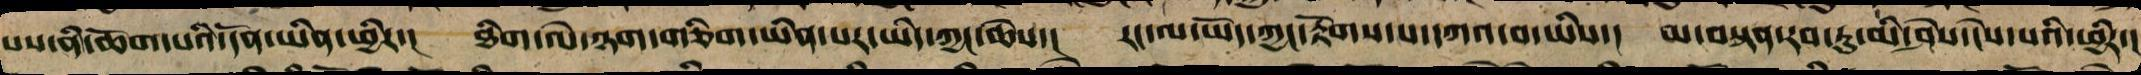པས་ནི་ཆོག་པའི་དོན་ཡིན་ཕྱིར་།   ཐིག་ལེ་ཉག་གཅིག་ཡིན་པར་ཡིད་ཀྱང་ཆེས་།   རང་ལ་ཡོད་ཀྱང་རྟོགས་པ་དཀའ་བ་ཡིས་།   མ་བསྟན་རབ་ཏུ་མི་ཤེས་ངེས་པའི་ཕྱིར་།
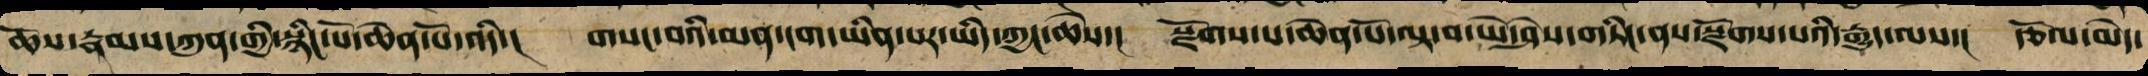ཆོས་རྣམས་ཀུན་གྱི་སྙིང་པོ་ཆེན་པོ་འདི་།   གསང་བའི་མན་ངག་ཡིན་པར་ཡིད་ཀྱང་ཆེས་།   སྫོགས་པ་ཆེན་པོ་ལྟ་བ་ཡེ་ཤེས་གཏིང་ནས་སྫོགས་པའི་རྒྱུད་ལས་།  རྩོལ་མེད་
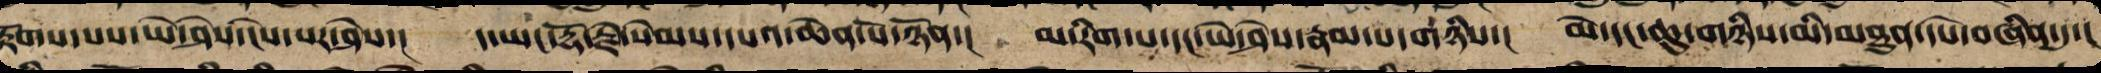རྟོགས་པས་ཡེ་ཤེས་ངེས་པར་ཤེས་།    ད་ཡང་རྡོ་རྗེ་སེམས་དཔའ་ཆེན་པོ་ཉོན་།   མ་རིག་པ་དང་ཡེ་ཤེས་རྣམ་པ་གཉིས་།   མེ་དང་ཆུ་གཉིས་མི་མཐུན་དཔེ་བཞིན་དུ་།
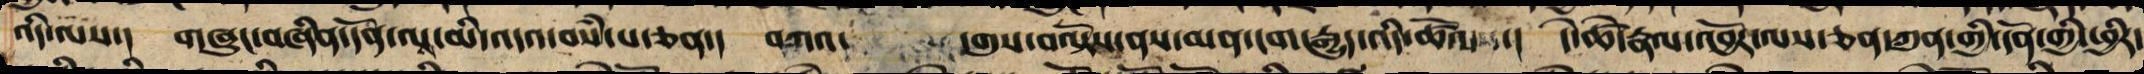འདི་ལས་། གཞུང་བཞིན་དོན་ལས་མི་འདའ་བསཾ་པ་ཅན་། དཀའ་  གུས་བལྟོས་ནས་མན་ངག་རྒྱུད་འདི་ཚོལ། དེ་ཚེ་རྣལ་འབྱོར་ལས་ཅན་ཀུན་གྱི་དོན་གྱི་ཕྱིར་
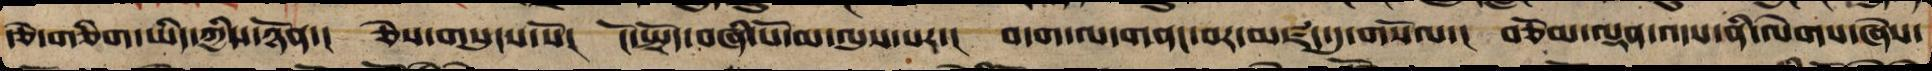རྩེ་གཅིག་ཡིད་ཀྱིས་ཉོན་།  ཅེས་གསུངས་སོ་།  ངོ་སྤྲོད་བཞི་པོ་མ་ལུས་པར་།  བདག་ལ་གནང་བར་མཛད་དུ་གསོལ་།  བཅོམ་ལྡན་འདས་ནི་ལེགས་ཞེས་
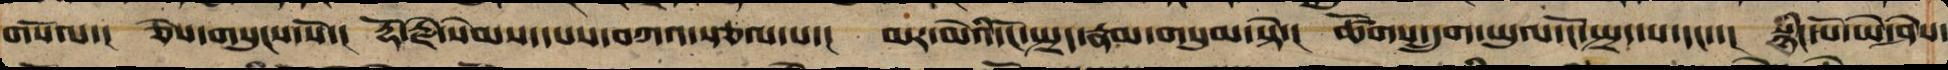གསོལ་།   ཅེས་གསུངས་སོ་།  རྡོ་རྗེ་སེམས་དཔས་བཀའ་སྩལ་པ་།  མར་མེའི་ངོ་སྤྲད་རྣམ་གསུམ་སྟེ་།   ཚོགས་དྲུག་ཡུལ་ངོ་སྤྲད་པ་དང་།   སྙིང་པོ་ཡེ་ཤེས་
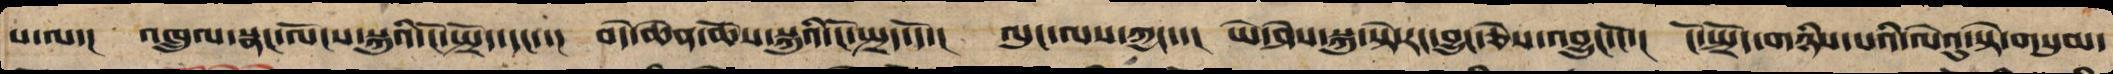པ་ལ་།  འཁྲུལ་སྣང་ལོངས་སྐུའི་ངོ་སྤྲོད་དང་་།  བདེ་ཆེན་ཆོས་སྐུའི་ངོ་སྤྲད་དོ་།   ལུང་ལས་ཀྱང་་།   ཡེ་ཤེས་སྐུ་སྟེ་རང་བྱུང་ཅེས་འབྱུང་ངོ་།   ངོ་སྤྲོད་གཉིས་པའི་ལེའུ་སྟེ་གསུམ་
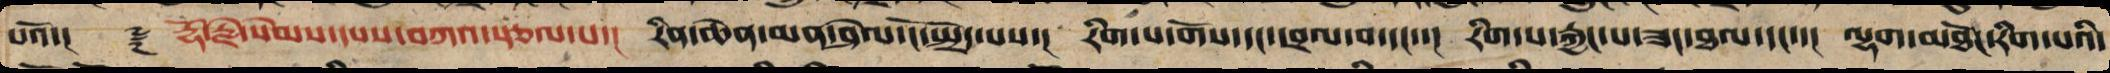པའོ་།།   ༈  རྡོ་རྗེ་སེམས་དཔས་བཀའ་སྩལ་པ་།  རིན་ཆེན་མན་ཤེལ་ངོ་སྤྲོད་པས་།   རིག་པ་གོས་དང་དབྲལ་བ་དང་་།  རིག་པ་རྐྱང་པ་ཟང་ཐལ་དང་་།  ལྷག་མཐོང་རིག་པའི་
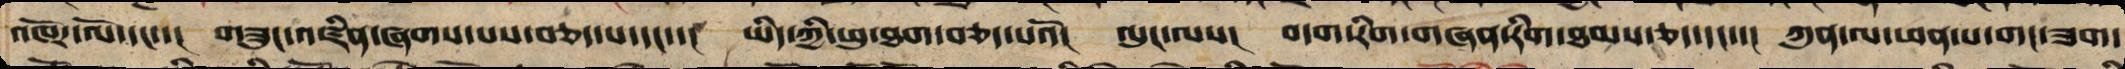འཁོར་ལོ་དང་་།  གཟུང་འཛིན་ཞགས་པས་བཅད་པ་དང་་།   ཡིད་ཀྱི་ཕུ་ཐག་བཅད་པའོ།   ལུང་ལས།   བདག་རིག་གཞན་རིག་ཐམས་ཅད་དང་་།  ཀུན་ལ་ཕན་པ་གང་ཟག་
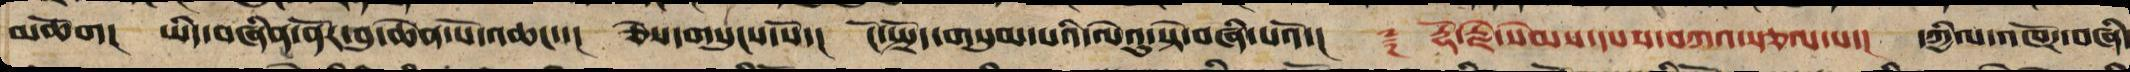མཆོག།།  ཡིད་བཞིན་ནོར་བུ་ཆེན་པོ་འཆང་།  ཅེས་གསུངས་སོ་།  ངོ་སྤྲོད་གསུམ་པའི་ལེའུ་སྟེ་བཞི་པའོ་།།   ༈   རྡོ་རྗེ་སེམས་དཔས་བཀའ་སྩལ་པ་།  དཀྱིལ་འཁོར་བཞི་
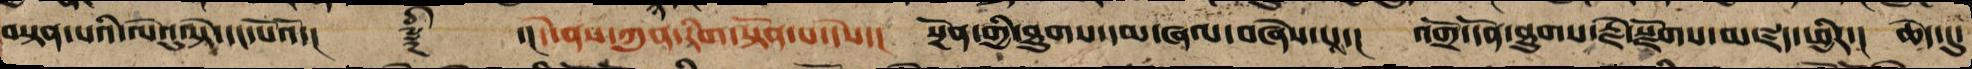བསྟན་པའི་ལེའུ་སྟེ་དང་པོའོ།། ༈ ་་དེ་ནས་ཀུན་རིག་སྟོན་པ་དེས། སྔོན་གྱི་ཐུགས་དམ་ཞལ་བཞེས་པས། འགྲོ་དོན་ཐུགས་རྗེ་རྫོགས་མཛད་ཕྱིར། ཆེད་དུ་
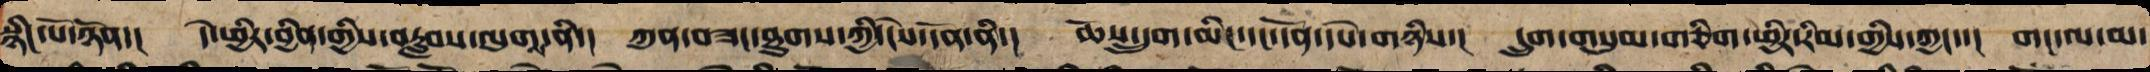སྙིང་པོ་ཉོན་།   དེ་ཕྱིར་བྱིན་གྱིས་བརླབས་ལུག་ནི་།  ཀུན་བཟང་ཐུགས་ཀྱི་ངེས་དོན་ནི་།   ཆོས་དྲུག་མིང་དང་དོན་དཔེ་གཉིས་།   དྲུག་གསུམ་གཅིག་ཕྱིར་རིམ་གྱིས་ཀྱང་་།  གང་ལ་མ་
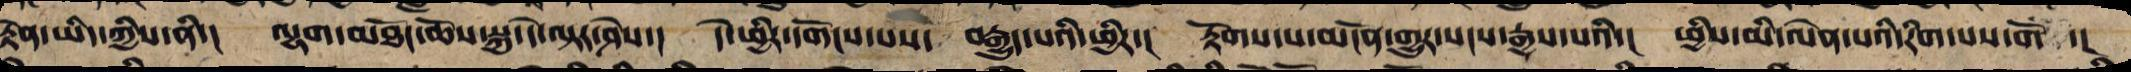རྟེན་ཡིད་ཀྱིས་ནི་།  ལྷག་མཐོང་ཆོས་སྐུ་དེ་ལྟར་ཤེས་།   དེ་ཕྱིར་དགོངས་པས་  བརྒྱུད་པའི་ཕྱིར་།  རྟོགས་པ་མངོན་གྱུར་སངས་རྒྱས་པའི་།   ཕྱིས་མི་ལེན་པའི་རིག་པས་གོ  ་།
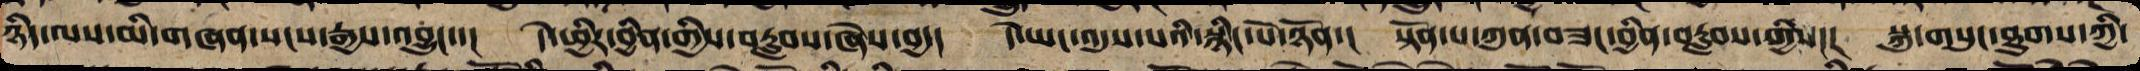ཉིད་ལས་མི་གཞན་སངས་རྒྱས་འབྱུང་་།   དེ་ཕྱིར་བྱིན་གྱིས་བརླབས་ཞེས་བྱ་།   དེ་ཡང་འདུས་པའི་སྙིང་པོ་ཉོན་།  སྟོན་པ་ཀུན་བཟང་བྱིན་རླབས་གྱིས་།  སྐུ་གསུང་ཐུགས་ཀྱི་
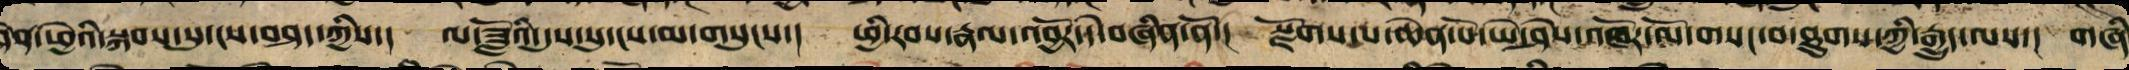ཤན་ཕྱེའི་སྐབས་སུ་ངས་བཤད་ཀྱིས། ལ་ཟློའི་དུས་སུ་ངས་མ་གསུངས། ཕྱི་རབས་རྣལ་འབྱོར་དེ་བཞིན་ནོ། རྫོགས་པ་ཆེན་པོ་ཡེ་ཤེས་འཁོར་ལོ་གསང་བ་ཐུགས་ཀྱི་རྒྱུད་ལས། གཞི་
